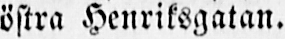östra Henriksgatan.
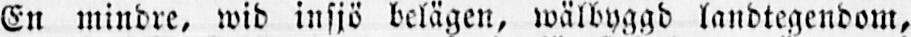En mindre, wid insjö belägen, wälbyggd landtegendom,
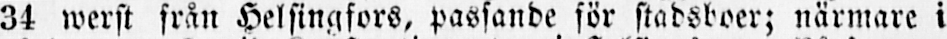34 werst från Helsingfors, passande för stadsboer; närmare i
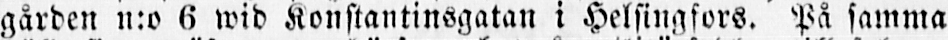gården n:o 6 wid Konstantinsgatan i Helsingfors. På samma
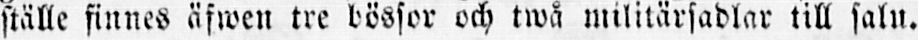ställe finnes äfwen tre bössor och twå militärsadlar till salu.
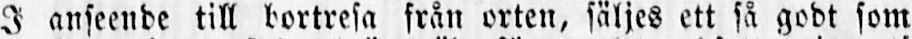I anseende till bortresa från orten, säljes ett så godt som
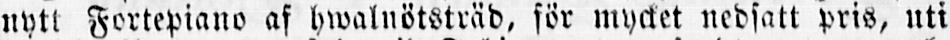nytt Fortepiano af hwalnötsträd, för mycket nedsatt pris, uti
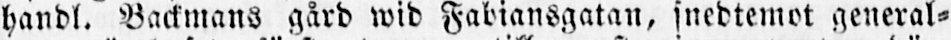handl. Backmans gård wid Fabiansgatan, snedtemot general-
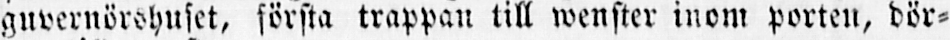guvernörshuset, första trappan till wenster inom porten, dör-
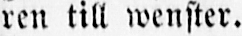ren till wenster.
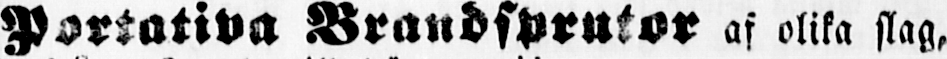Portativa Brandsprutor af olika slag,
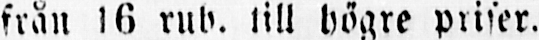från 16 rub. till högre priser.
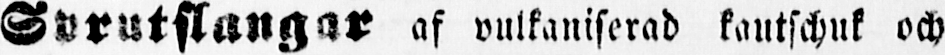Sprutslangar af vulkaniserad kautschuk och
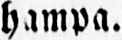hampa.
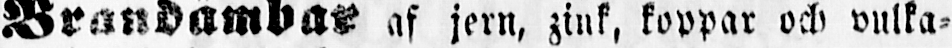Brandämbar af jern, zink, koppar och vulka-
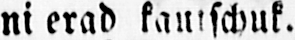ni erad kautschuk.
